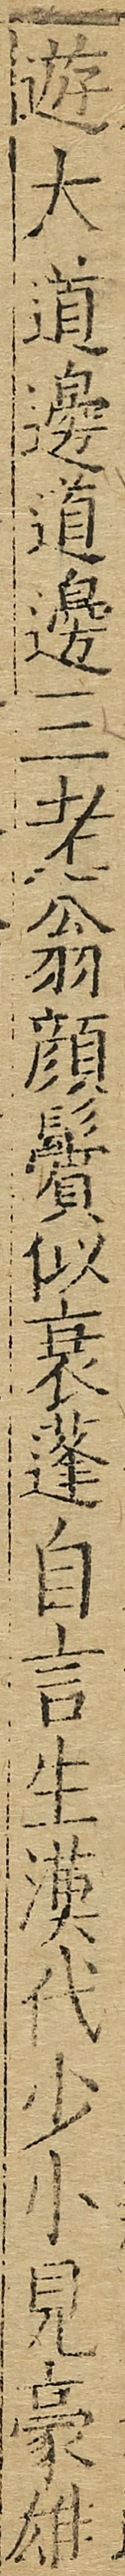遊大道邊道邊三老翁顏鬢似衰蓬自言生漢代少小見豪雄
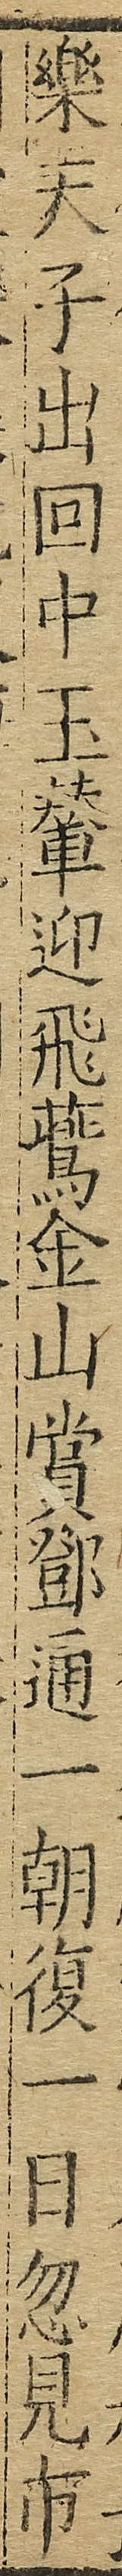樂天子出回中玉輦迎飛鷰金山賞鄧通一朝復一日忽見市
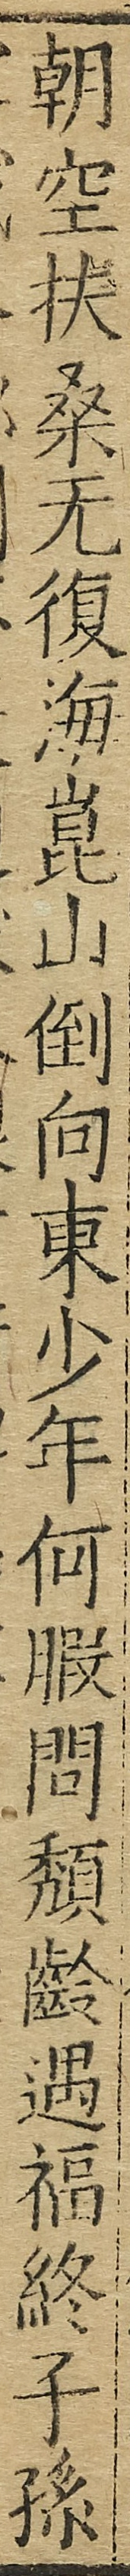朝空扶桑無復海崑山倒向東少年何暇問頹齡遇福終子孫
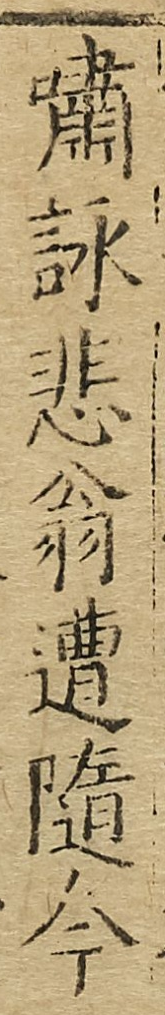嘯詠悲翁遭隨今
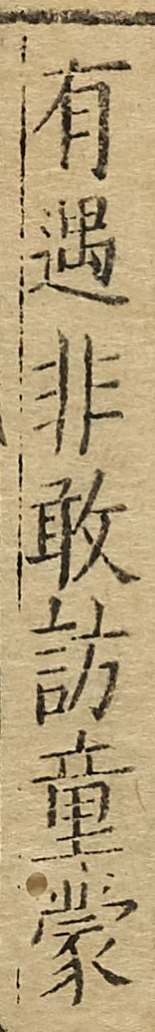有遇非敢訪童蒙
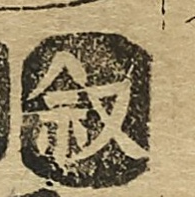敘
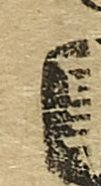事
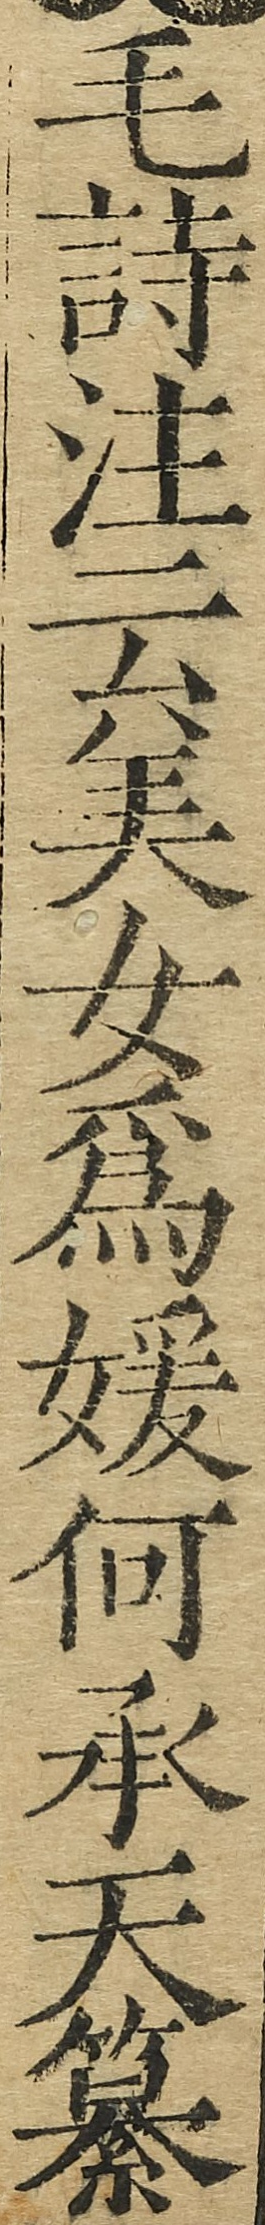毛詩注云美女為媛何承天纂
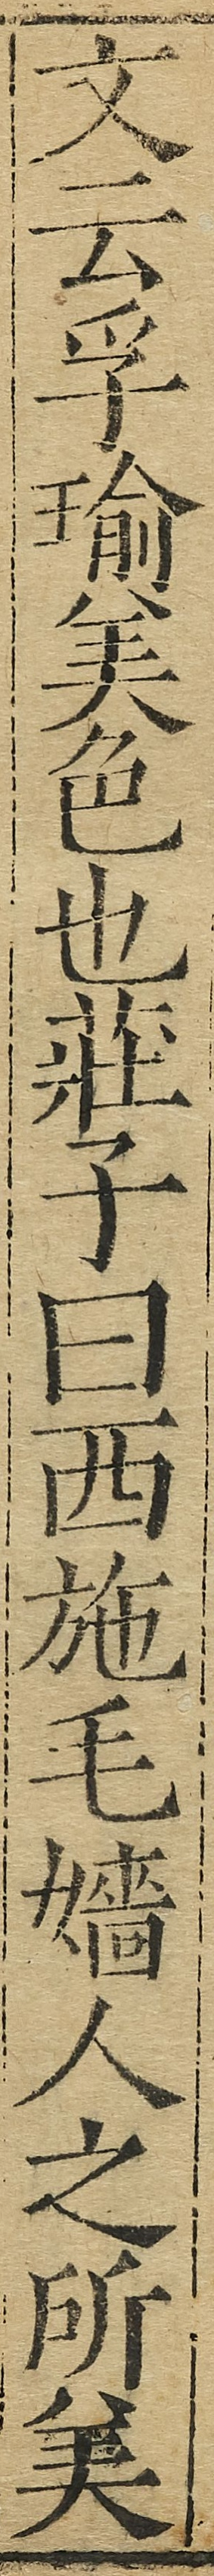文云孚瑜美色也莊子曰西施毛嬙人之所美
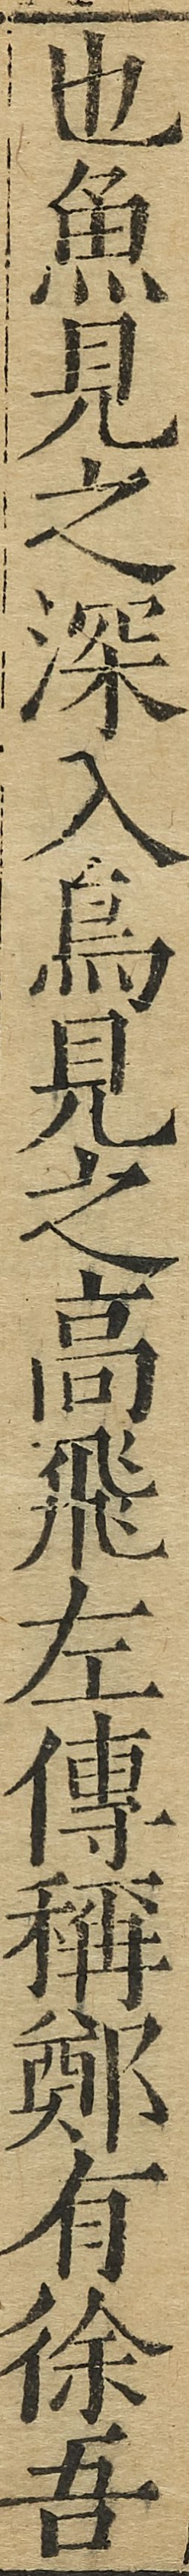也魚見之深入鳥見之高飛左傳稱鄭有徐吾
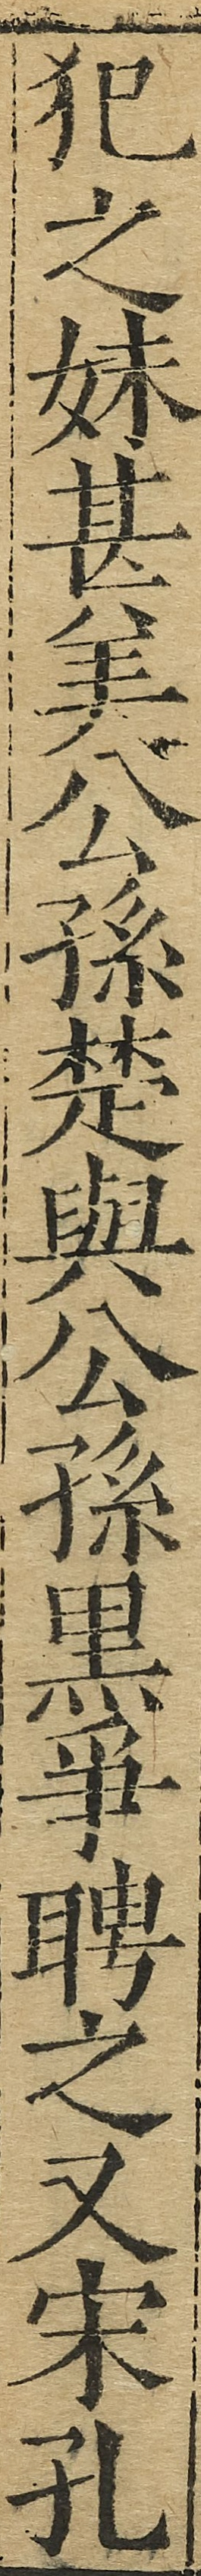犯之妹甚美公孫楚與公孫黑爭聘之又宋孔
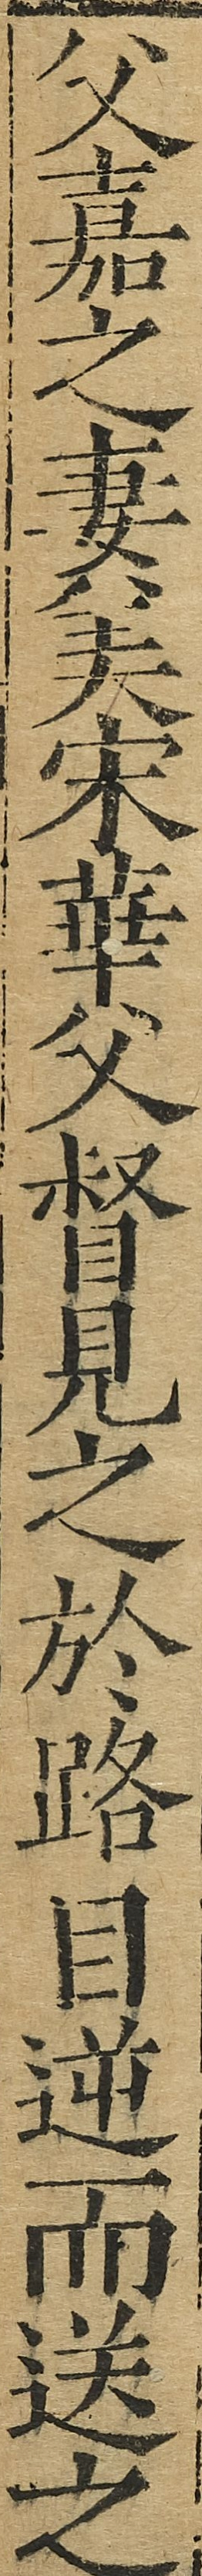父嘉之妻美宋華父督見之於路目逆而送之
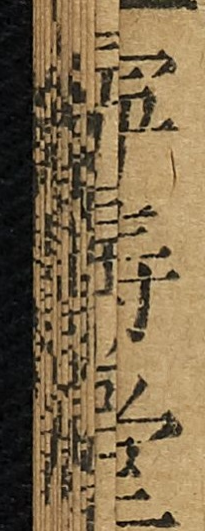寧壽堂
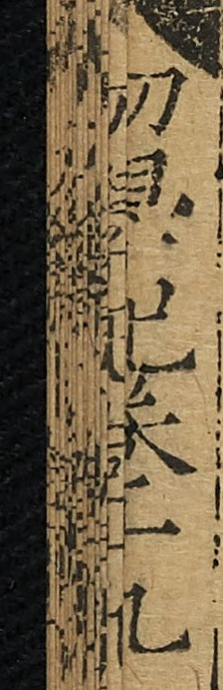初學記卷十九
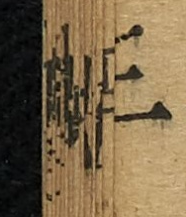三
